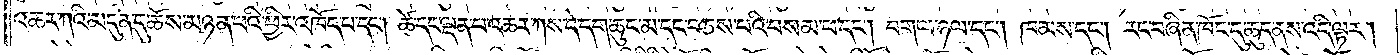འཆར་ཀའི་མདུན་དུ་ཆོས་མཉན་པའི་ཕྱིར་འཁོད་པ་དང༌། ཚེ་དང་ལྡན་པ་འཆར་ཀས་དེ་དག་ཆུང་མ་དང་བཅས་པའི་བསམ་པ་དང༌། བག་ལ་ཉལ་དང༌། ཁམས་དང༌། རང་བཞིན་ཁོང་དུ་ཆུད་ནས་འདི་ལྟར།
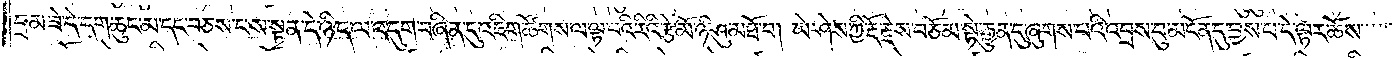བྲམ་ཟེ་དེ་དག་ཆུང་མ་དང་བཅས་པས་སྟན་དེ་ཉིད་ལ་འདུག་བཞིན་དུ་འཇིག་ཚོགས་ལ་ལྟ་བའི་རིའི་རྩེ་མོ་ཉི་ཤུ་མཐོ་བ། ཡེ་ཤེས་ཀྱི་རྡོ་རྗེས་བཅོམ་སྟེ་རྒྱུན་དུ་ཞུགས་པའི་འབྲས་བུ་མངོན་དུ་བྱས་པ་དེ་ལྟར་ཆོས་
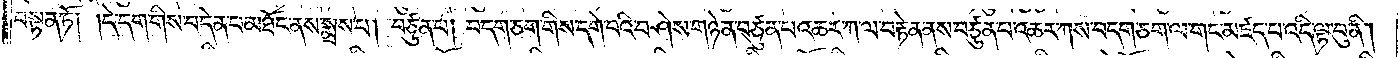བསྟན་ཏོ། །དེ་དག་གིས་བདེན་པ་མཐོང་ནས་སྨྲས་པ། བཙུན་པ། བདག་ཅག་གིས་དགེ་བའི་བཤེས་གཉེན་བཙུན་པ་འཆར་ཀ་ལ་བརྟེན་ནས་བཙུན་པ་འཆར་ཀས་བདག་ཅག་ལ་གང་མཛད་པ་འདི་ལྟ་བུ་ནི།
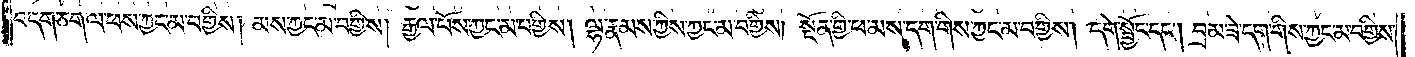བདག་ཅག་ལ་ཕས་ཀྱང་མ་བགྱིས། མས་ཀྱང་མ་བགྱིས། རྒྱལ་པོས་ཀྱང་མ་བགྱིས། ལྷ་རྣམས་ཀྱིས་ཀྱང་མ་བགྱིས། སྔོན་གྱི་ཕ་མས་དག་གིས་ཀྱང་མ་བགྱིས། དགེ་སྦྱོང་དང༌། བྲམ་ཟེ་དག་གིས་ཀྱང་མ་བགྱིས་
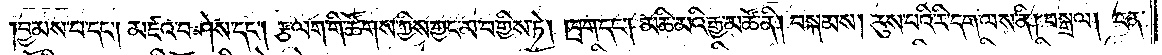བྱམས་པ་དང༌། མཛའ་བཤེས་དང༌། རྩ་ལག་གི་ཚོགས་ཀྱིས་ཀྱང་མ་བགྱིས་ཏེ། ཁྲག་དང༌། མཆི་མའི་རྒྱ་མཚོ་ནི། བསྐམས། རུས་པའི་རི་དག་ལས་ནི། བསྒྲལ། ངན་
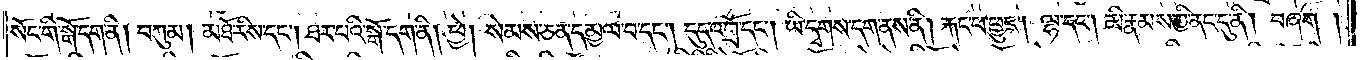སོང་གི་སྒོ་དག་ནི། བཀུམ། མཐོ་རིས་དང༌། ཐར་པའི་སྒོ་དག་ནི། ཕྱེ། སེམས་ཅན་དམྱལ་བ་དང༌། དུད་འགྲོ་དང༌། ཡི་དྭགས་དག་ནས་ནི། རྐང་པ་ཕྱུང༌། ལྷ་དང༌། མི་རྣམས་ཀྱི་ནང་དུ་ནི། བཞག །
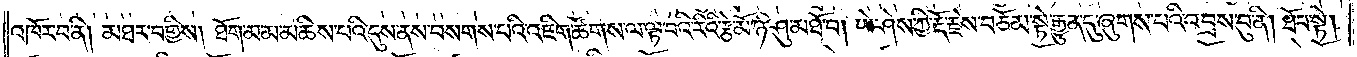འཁོར་བ་ནི། མཐར་བགྱིས། ཐོག་མ་མ་མཆིས་པའི་དུས་ནས་བསགས་པའི་འཇིག་ཚོགས་ལ་ལྟ་བའི་རིའི་རྩེ་མོ་ཉི་ཤུ་མཐོ་བ། ཡེ་ཤེས་ཀྱི་རྡོ་རྗེས་བཅོམ་སྟེ་རྒྱུན་དུ་ཞུགས་པའི་འབྲས་བུ་ནི། ཐོབ་སྟེ།
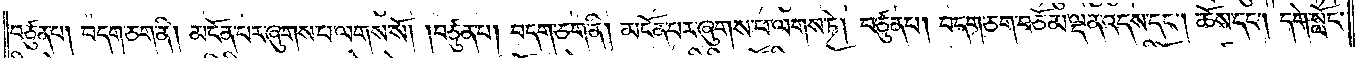བཙུན་པ། བདག་ཅག་ནི། མངོན་པར་ཞུགས་པ་ལགས་སོ། །བཙུན་པ། བདག་ཅག་ནི། མངོན་པར་ཞུགས་པ་ལགས་ཏེ། བཙུན་པ། བདག་ཅག་བཅོམ་ལྡན་འདས་དང༌། ཆོས་དང༌། དགེ་སློང་
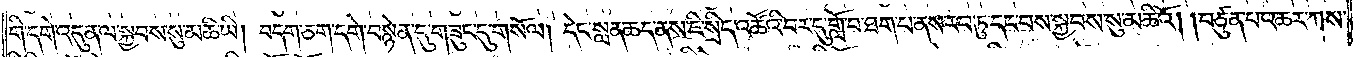གི་དགེ་འདུན་ལ་སྐྱབས་སུ་མཆི་ཡི། བདག་ཅག་དགེ་བསྙེན་དུ་གཟུང་དུ་གསོལ། དེང་སླན་ཆད་ནས་ཇི་སྲིད་འཚོའི་བར་དུ་གློ་བ་ཐག་པ་ནས་རབ་ཏུ་དང་བས་སྐྱབས་སུ་མཆིའོ། །བཙུན་པ་འཆར་ཀས་
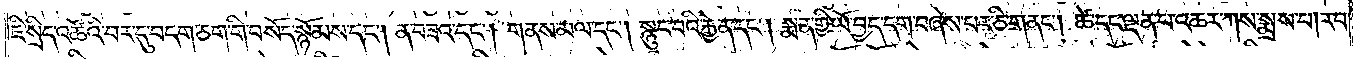ཇི་སྲིད་འཚོའི་བར་དུ་བདག་ཅག་གི་བསོད་སྙོམས་དང༌། ན་བཟའ་དང༌། གནས་མལ་དང༌། སྙུང་བའི་རྐྱེན་དང༌། སྨན་གྱི་ཡོ་བྱད་དག་བཞེས་པར་ཅི་གནང༌། ཚེ་དང་ལྡན་པ་འཆར་ཀས་སྨྲས་པ། རབ་
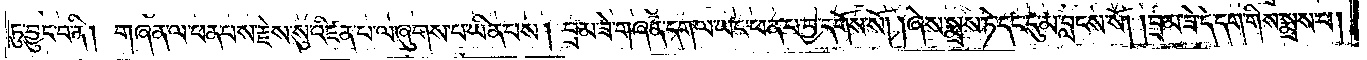ཏུ་བྱུང་བ་ནི། གཞན་ལ་ཕན་པས་རྗེས་སུ་འཛིན་པ་ལ་ཞུགས་པ་ཡིན་པས། བྲམ་ཟེ་གཞན་དག་ལ་ཡང་ཕན་པ་བྱ་དགོས་སོ། །ཞེས་སྨྲས་ཏེ་དང་དུ་མ་བླངས་སོ། །བྲམ་ཟེ་དེ་དག་གིས་སྨྲས་པ།
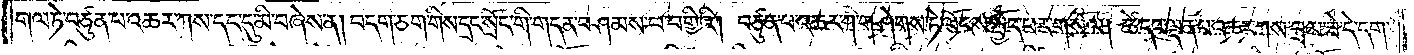གལ་ཏེ་བཙུན་པ་འཆར་ཀས་དང་དུ་མི་བཞེས་ན། བདག་ཅག་གིས་དྲང་སྲོང་གི་གདན་བཤམས་པ་བགྱིའོ། །བཙུན་པ་འཆར་ཀ་གཤེགས་ཏེ་ལོངས་སྤྱོད་པར་གསོལ། ཚེ་དང་ལྡན་པ་འཆར་ཀས་བྲམ་ཟེ་དེ་དག་
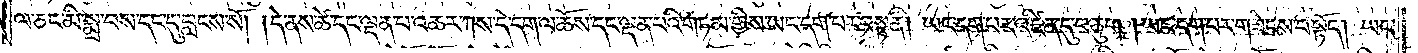ལ་ཅང་མི་སྨྲ་བས་དང་དུ་བླངས་སོ། །དེ་ནས་ཚེ་དང་ལྡན་པ་འཆར་ཀས་དེ་དག་ལ་ཆོས་དང་ལྡན་པའི་གཏམ་གྱིས་ཡང་དག་པར་བསྟན། ཡང་དག་པར་འཛིན་དུ་བཅུག །ཡང་དག་པར་གཟེངས་བསྟོད། ཡང་
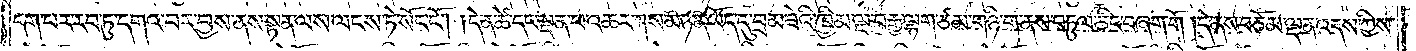དག་པར་རབ་ཏུ་དགའ་བར་བྱས་ནས་སྟན་ལས་ལངས་ཏེ་སོང་ངོ༌། །དེ་ན་ཚེ་དང་ལྡན་པ་འཆར་ཀས་མཉན་ཡོད་དུ་བྲམ་ཟེའི་ཁྱིམ་ལྔ་བརྒྱ་ལྷག་ཙམ་གཉི་ག་ནས་བཏུལ་ཅིང་བཞག་གོ །དེ་ནས་བཅོམ་ལྡན་འདས་ཀྱིས་
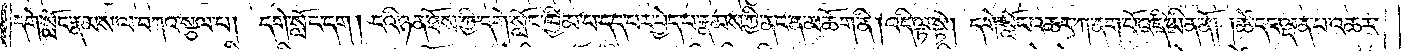དགེ་སློང་རྣམས་ལ་བཀའ་སྩལ་པ། དགེ་སློང་དག །ངའི་ཉན་ཐོས་ཀྱི་དགེ་སློང་ཁྱིམ་པ་དད་པར་བྱེད་པ་རྣམས་ཀྱི་ནང་ན་མཆོག་ནི། འདི་ལྟ་སྟེ། དགེ་སློང་འཆར་ཀ་ནག་པོ་འདི་ཡིན་ནོ། །ཚེ་དང་ལྡན་པ་འཆར་
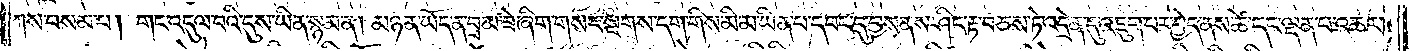ཀས་བསམ་པ། གང་འདུལ་བའི་དུས་ཡིན་སྙམ་ན། མཉན་ཡོད་ན་བྲམ་ཟེ་ཞིག་གསང་སྔགས་དག་གིས་མི་མ་ཡིན་པ་དབང་དུ་བྱས་ནས་ཤིང་རྟ་བཅས་ཏེ་འདྲེན་དུ་འཇུག་པར་བྱེད་ནས་ཚེ་དང་ལྡན་པ་འཆར་
